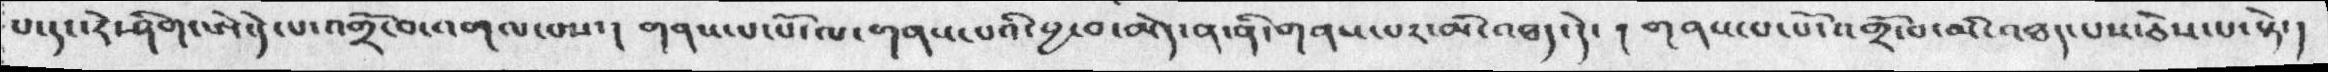པ་དང་རེ་ཤིག་ཨེ་དེ་པ་འགྲོ་བ་འགལ་བས་།  གནས་པ་པོ་ལ་གནས་པའི་བྱ་བ་མེད་ན་ནི་གནས་པར་མི་འཐད་དེ་། གནས་པ་པོ་འགྲོ་བ་མི་འཐད་པས་ཅེས་པ་སྟེ་།
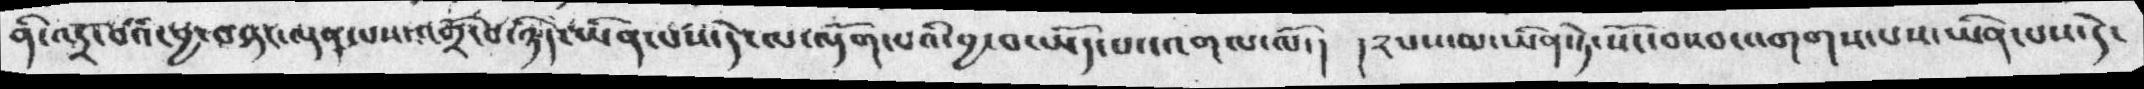ནི་འདྲོ་བའི་བྱ་བ་དང་ལྡན་པས་འགྲོ་བ་ཉིད་ཡིན་པས་དེ་ལ་ལྡོག་པའི་བྱ་བ་ཡོད་པ་འགལ་ལོ་།  །༢པས་མ་ཡིན་ཏེ་སོང་བསབ་འགགས་པས་ཡིན་པས་དེ་
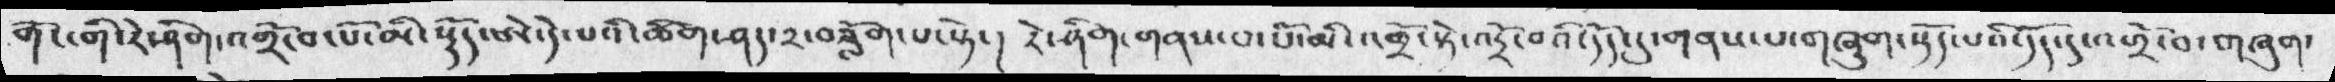གོང་གི་རེ་ཤིག་འགྲོ་བ་པོ་མི་སྡོད་ཨེ་དེ་པའི་ཚིག་ཤད་༢་བཟློག་པ་སྟེ་། རེ་ཤིག་གནས་པ་པོ་མི་འགྲོ་སྟེ་འདྲོ་བའི་དོད་དུ་གནས་པ་གཞུག་སྡོད་པའི་དོད་དུ་འགྲོ་བ་གཞུག་
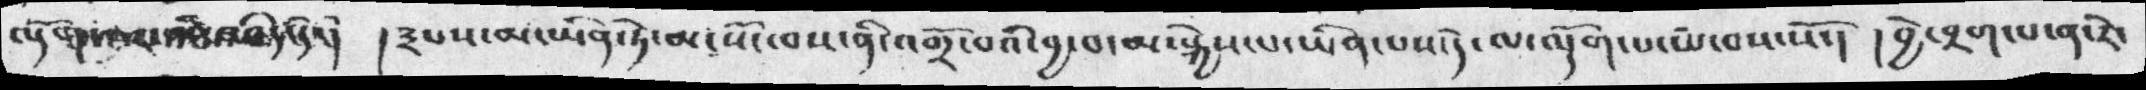འདོགས་པར་མི་འཐད་དོ་།  །༣པས་མ་ཡིན་ཏེ་མ་སོང་བས་ནི་འགྲོ་བའི་བྱ་བ་མ་སྐྱེས་པ་ཡིན་པས་དེ་ལ་ལྡོག་པ་ཡ་བས་སོ་། །བྱེ་བྲག་པ་ན་རེ་
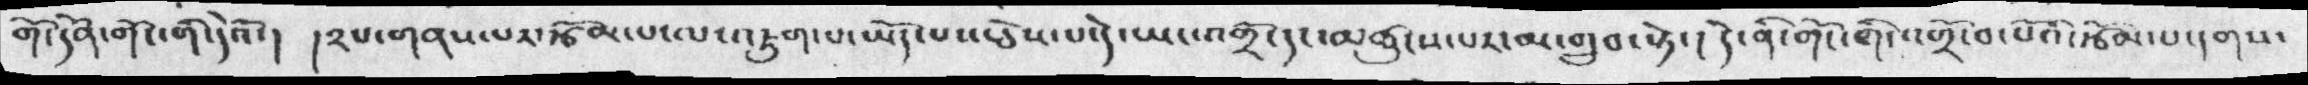གོ་དོན་གོང་གི་དེའོ་།  །༢པ་གནས་པར་རྩོམ་པ་ལ་འཇུག་པ་ཡོད་པས་ཅེས་པ་དེ་ཡང་འགྲོ་དང་མཚུངས་པར་མ་གྲུབ་སྟེ་།  དེ་ནི་གོང་གི་འགྲོ་བ་པོའི་རྩོམ་པ་དགས་
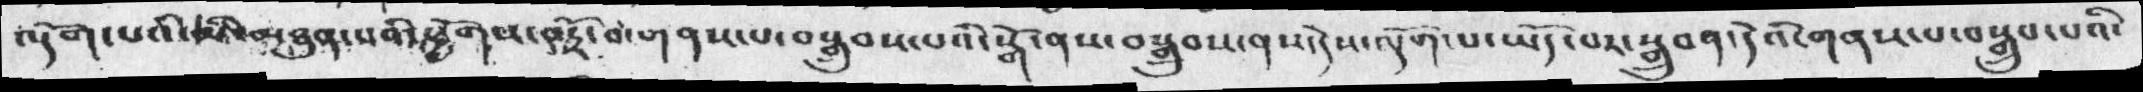ལྡོག་པའི་མི་མཐུན་པའི་ཕྱོགས་འདྲོ་བ་གནས་པ་བསྒྲུབས་པའི་སྒོ་ནས་བསྒྲུབས་ནས་དེས་ལྡོག་པ་ཡོད་པར་སྒྲུབན་དེའི་གནས་པ་བསྒྲུབ་པའི་
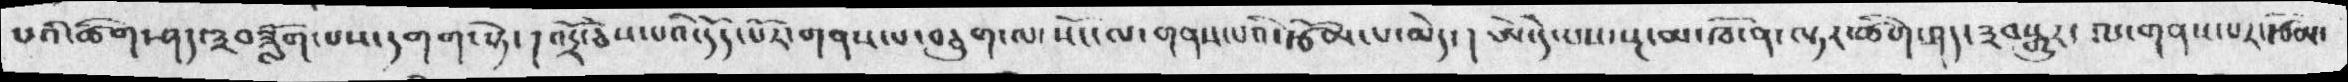པའི་ཚིག་ཤད་༣བཟློག་པས་དགག་སྟེ་ ། འདྲོ་ཅེས་པའི་དོད་པོར་གནས་པ་བཅུག་ལ་སོང་ལ་གནས་པའི་རྩོམ་པ་མེད་ ། ཨེ་དེ་པས་སྔ་མ་ཁོ་ན་ལྟར་ཚིག་ཤད་༣བསྒྱུར་ ལ་གནས་པར་རྩོམ་
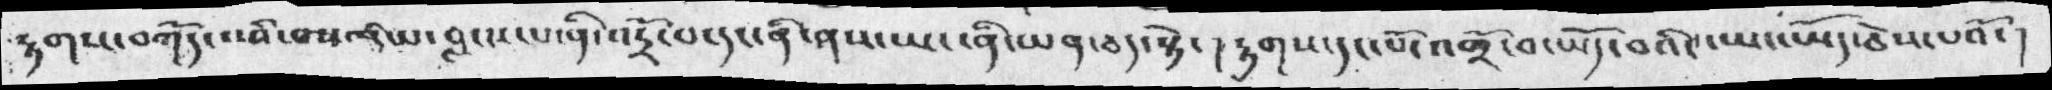རྟགས་བཀོད་འབི་བས་ཤི་པ་བླངས་པ་ནི་འདྲོ་པ་དང་ནི་ཤས་ཡང་ནི་ཡན་ཅད་སྟེ་ ། རྟགས་དང་པོ་འགྲོ་བ་ཡོད་བའི་ང་ཡང་ཡོད་ཅེས་པའོ་།
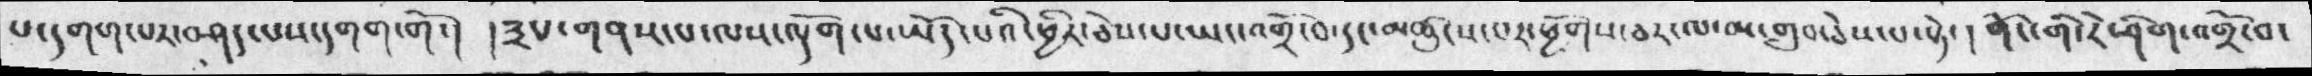པ་དགག་པར་བཤད་པས་དགག་གོ་།  །༣པ་གནས་པ་ལས་ལྡོག་པ་ཡོད་པའི་ཕྱིར་ཅེས་པ་ཡང་འགྲོ་བ་དང་མཚུངས་པར་ཕྱོགས་ཅར་ལ་མ་གྲུབ་ཅེས་པ་སྟེ་། གོང་གི་རེ་ཤིག་འགྲོ་བ་
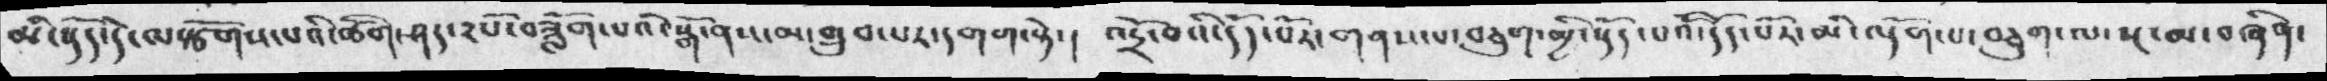མི་སྡོད་དེ་ལསྩོགས་པའི་ཚིག་ཤད་༢པོ་བཟློག་པའི་སྒོ་ནས་མ་གྲུབ་པར་དགག་སྟེ་། འདྲོ་བའི་དོད་པོར་གནས་བཅུག་མྱི་སྡོད་པའི་དོད་པོར་མི་ལྡོག་པ་བཅུག་པ་སྔ་མ་བཞིན་
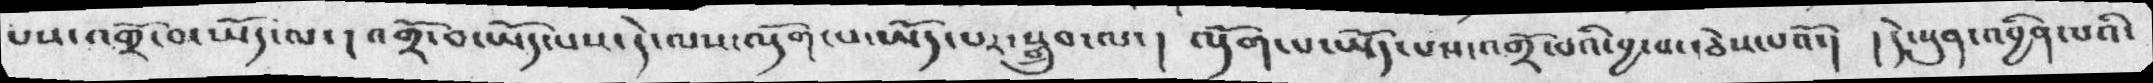པས་འགྲོ་བ་ཡོད་ལ་། འགྲོ་བ་ཡོད་པས་དེ་ལས་ལྡོག་པ་ཡོད་པར་སྒྲུབ་ལ་། ལྡོག་པ་ཡོད་པས་འགྲོ་བའི་བྱ་བ་ཅེས་པའོ་། །དེ་སུན་འབྱིན་པའི་
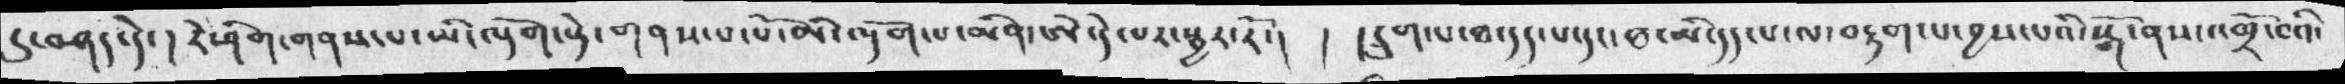དུ་བཤད་དེ་ ། ར་ཤིག་གནས་པ་ཡི་ལྡོག་སྟེ་གནས་པ་པ་ོ་མི་ལྡོག་པ་མིན་ཨེ་དེ་པར་སྦྱར་རོ་།  ། །དྲུག་པ་ཐ་དད་པ་དང་ཐ་མི་དད་པ་ལ་བརྟག་པ་བྱས་པའི་སྒོ་ནས་འགྲོ་བའི་
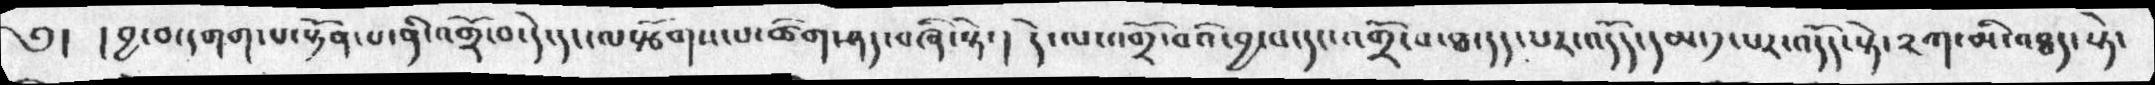༅།  །བྱ་བ་དགག་པ་སྟོན་པ་ནི་འགྲོ་བ་དེ་དང་ལསྩོགས་པ་ཚིག་ཤད་བཞི་སྟེ་།  དེ་ལ་འགྲོ་བའི་བྱ་བ་དང་འགྲོ་བ་ཐ་དད་པར་འདོད་དམ་༡་པར་འདོད་སྟེ་༢ཀ་མི་འཐད་སྟེ་
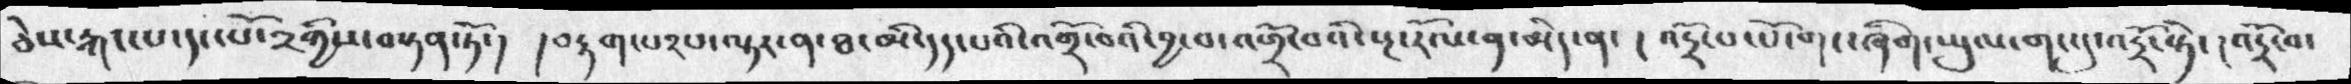ཅེས་རྐང་པ་དང་པོ་༢གྱིས་བསྟན་ཏོ་།  །བརྟག་པ༢པ་ལྟར་ན་ཐ་མི་དད་པའི་འགྲོ་བའི་བྱ་བ་འགྲོ་བའི་སྔ་རོལ་ན་མེད་ན་ །འདྲོ་པ་པོ་གང་ཞིག་ཡུལ་གང་དུ་འདྲོ་སྟེ་། འདྲོ་བ་
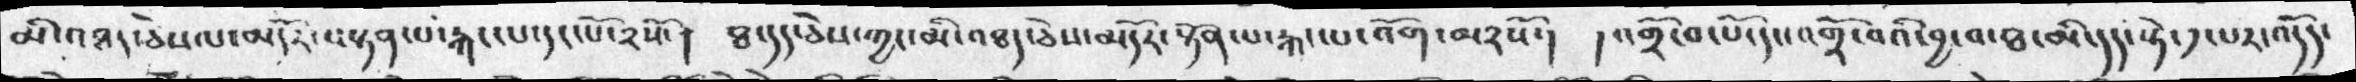མི་འཐད་ཅེས་ལ་མདོར་བསྟན་པ་རྐང་པ་དང་པོ་༢སོ་།  ཐ་དད་ཅེས་ཀྱང་མི་འཐད་ཅེས་མདོར་སྟོན་པ་རྐང་པ་འོག་མ༢སོ་།  །འགྲོ་བ་པོ་དང་འགྲོ་བའི་བྱ་བ་ཐ་མི་དད་སྟེ་༡་པར་འདོད་
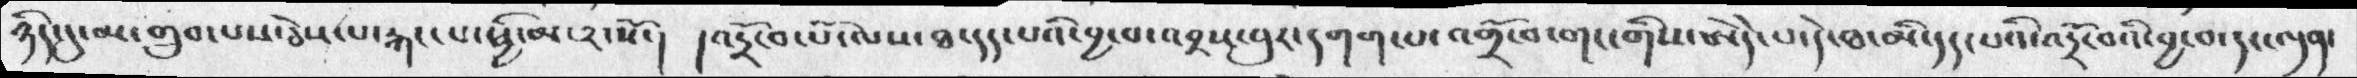ཉིད་དུ་མ་གྲུབ་པས་ཅེས་པ་རྐང་པ་ཕྱི་མ་༢་སོ་།  །འདྲོ་བ་པོ་ལས་ཐ་དད་པའི་བྱ་བ་འབྲས་བུར་དགག་པ་འགྲོ་བ་གང་གིས་ཨེདེ་པ་དེ་ཐ་མི་དད་པའི་འདྲོ་བའི་བྱ་བ་དང་ལྡན་
